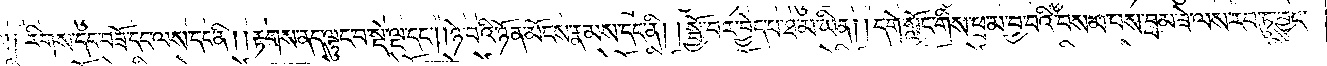ལ༑ རིགས་དང་བཟོ་དང་ལས་དང་ནི། །རྟག་ནད་ལྟུང་བ་སྡེ་ལྔ་དང༌། །ཉེ་བའི་ཉོན་མོངས་རྣམས་དང་ནི། །སྤྱོ་བར་བྱེད་པ་ཐ་མ་ཡིན། །དགེ་སློང་གིས་ཕྲ་མ་བྱ་བའི་བསམ་པས་བྲམ་ཟེ་ལས་རབ་ཏུ་བྱུང་
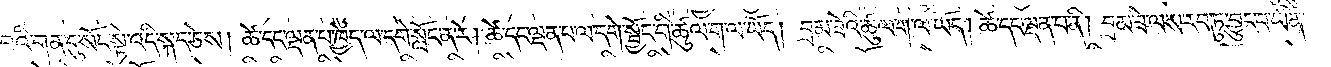བའི་གན་དུ་སོང་སྟེ་འདི་སྐད་ཅེས། ཚེ་དང་ལྡན་པ་ཁྱེད་ལ་དགེ་སློང་ན་རེ། ཚེ་དང་ལྡན་པ་ལ་དགེ་སྦྱོང་གི་ཚུལ་ག་ལ་ཡོད། བྲམ་ཟེའི་ཚུལ་ག་ལ་ཡོད། ཚེ་དང་ལྡན་པ་ནི། བྲམ་ཟེ་ལས་རབ་ཏུ་བྱུང་བ་ཡིན་
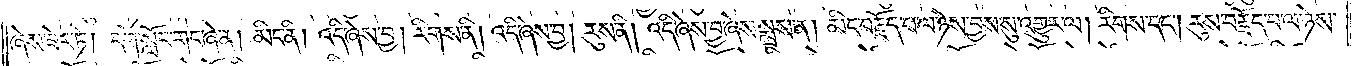ཞེས་ཟེར་ཏེ། དགེ་སློང་གང་ཞེ་ན། མིང་ནི། འདི་ཞེས་བྱ། རིགས་ནི། འདི་ཞེས་བྱ། རུས་ནི། འདི་ཞེས་བྱ་ཞེས་སྨྲས་ན། མིང་བརྗོད་པ་ལ་ཉེས་བྱས་སུ་འགྱུར་ལ། རིགས་དང༌། རུས་བརྗོད་པ་ལ་ཉེས་
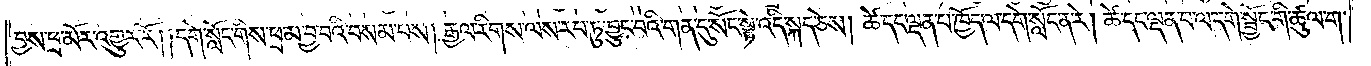བྱས་ཕྲ་མོར་འགྱུར་རོ། །དགེ་སློང་གིས་ཕྲ་མ་བྱ་བའི་བསམ་པས། རྒྱལ་རིགས་ལས་རབ་ཏུ་བྱུང་བའི་གན་དུ་སོང་སྟེ་འདི་སྐད་ཅེས། ཚེ་དང་ལྡན་པ་ཁྱོད་ལ་དགེ་སློང་ན་རེ། ཚེ་དང་ལྡན་པ་ལ་དགེ་སྦྱོང་གི་ཚུལ་ག་
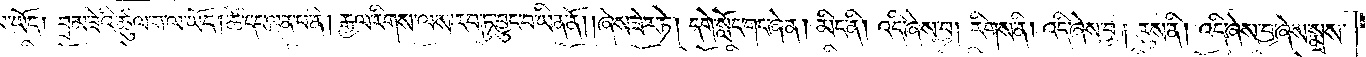ལ་ཡོད། བྲམ་ཟེའི་ཚུལ་ག་ལ་ཡོད། ཚེ་དང་ལྡན་པ་ནི། རྒྱལ་རིགས་ལས་རབ་ཏུ་བྱུང་བ་ཡིན་ནོ། །ཞེས་ཟེར་ཏེ། དགེ་སློང་གང་ཞེ་ན། མིང་ནི། འདི་ཞེས་བྱ། རིགས་ནི། འདི་ཞེས་བྱ། རུས་ནི། འདི་ཞེས་བྱ་ཞེས་སྨྲས་
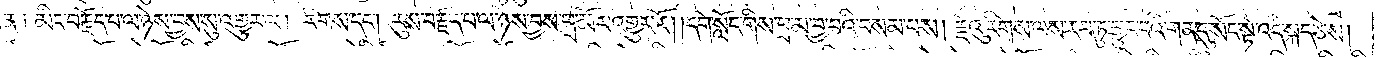ན༑ མིང་བརྗོད་པ་ལ་ཉེས་བྱས་སུ་འགྱུར་ལ། རིགས་དང༌། རུས་བརྗོད་པ་ལ་ཉེས་བྱས་ཕྲ་མོར་འགྱུར་རོ། །དགེ་སློང་གིས་ཕྲ་མ་བྱ་བའི་བསམ་པས། རྗེའུ་རིགས་ལས་རབ་ཏུ་བྱུང་བའི་གན་དུ་སོང་སྟེ་འདི་སྐད་ཅེས།
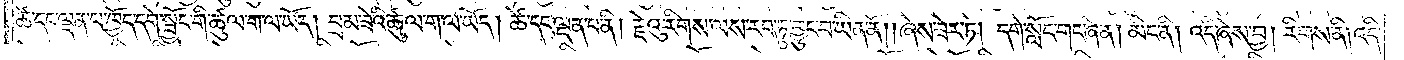ཚེ་དང་ལྡན་པ་ཁྱོད་དགེ་སྦྱོང་གི་ཚུལ་ག་ལ་ཡོད། བྲམ་ཟེའི་ཚུལ་ག་ལ་ཡོད། ཚེ་དང་ལྡན་པ་ནི། རྗེའུ་རིགས་ལས་རབ་ཏུ་བྱུང་བ་ཡིན་ནོ། །ཞེས་ཟེར་ཏེ། དགེ་སློང་གང་ཞེ་ན། མིང་ནི། འདི་ཞེས་བྱ། རིགས་ནི། འདི་
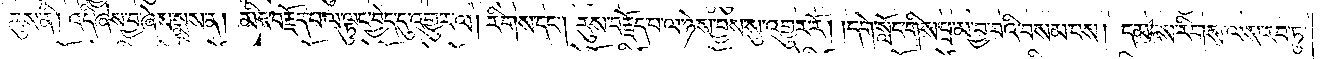ཞེས་བྱ། རུས་ནི། འདི་ཞེས་བྱ་ཞེས་སྨྲས་ན། མིང་བརྗོད་པ་ལ་ལྟུང་བྱེད་དུ་འགྱུར་ལ། རིགས་དང༌། རུས་བརྗོད་པ་ལ་ཉེས་བྱས་སུ་འགྱུར་རོ། །དགེ་སློང་གིས་ཕྲ་མ་བྱ་བའི་བསམ་པས། དམངས་རིགས་ལས་རབ་ཏུ་
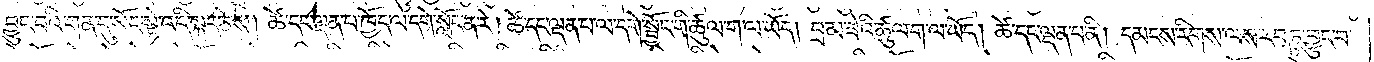བྱུང་བའི་གན་དུ་སོང་སྟེ་འདི་སྐད་ཅེས། ཚེ་དང་ལྡན་པ་ཁྱོད་ལ་དགེ་སློང་ན་རེ། ཚེ་དང་ལྡན་པ་ལ་དགེ་སྦྱོང་གི་ཚུལ་ག་ལ་ཡོད། བྲམ་ཟེའི་ཚུལ་ག་ལ་ཡོད། ཚེ་དང་ལྡན་པ་ནི། དམངས་རིགས་ལས་རབ་ཏུ་བྱུང་བ་
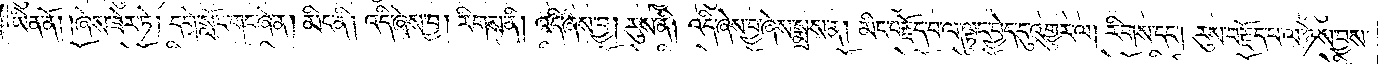ཡིན་ནོ། །ཞེས་ཟེར་ཏེ། དགེ་སློང་གང་ཞེ་ན། མིང་ནི། འདི་ཞེས་བྱ། རིགས་ནི། འདི་ཞེས་བྱ། རུས་ནི། འདི་ཞེས་བྱ་ཞེས་སྨྲས་ན། མིང་བརྗོད་པ་ལ་ལྟུང་བྱེད་དུ་འགྱུར་ལ། རིགས་དང༌། རུས་བརྗོད་པ་ལ་ཉེས་བྱས་
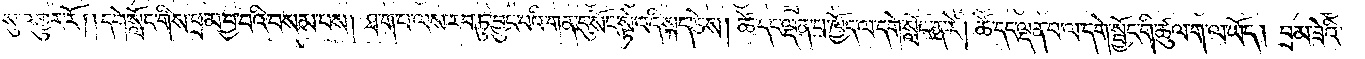སུ་འགྱུར་རོ། །དགེ་སློང་གིས་ཕྲ་མ་བྱ་བའི་བསམ་པས། ཐ་ག་པ་ལས་རབ་ཏུ་བྱུང་བའི་གན་དུ་སོང་སྟེ་འདི་སྐད་ཅེས། ཚེ་དང་ལྡན་པ་ཁྱོད་ལ་དགེ་སློང་ན་རེ། ཚེ་དང་ལྡན་པ་ལ་དགེ་སྦྱོང་གི་ཚུལ་ག་ལ་ཡོད། བྲམ་ཟེའི་
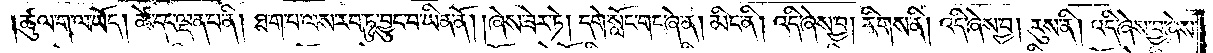ཚུལ་ག་ལ་ཡོད། ཚེ་དང་ལྡན་པ་ནི། ཐ་ག་པ་ལས་རབ་ཏུ་བྱུང་བ་ཡིན་ནོ། །ཞེས་ཟེར་ཏེ། དགེ་སློང་གང་ཞེ་ན། མིང་ནི། འདི་ཞེས་བྱ། རིགས་ནི། འདི་ཞེས་བྱ། རུས་ནི། འདི་ཞེས་བྱ་ཞེས་
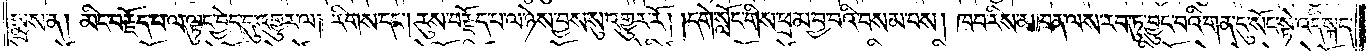སྨྲས་ན། མིང་བརྗོད་པ་ལ་ལྟུང་བྱེད་དུ་འགྱུར་ལ། རིགས་དང༌། རུས་བརྗོད་པ་ལ་ཉེས་བྱས་སུ་འགྱུར་རོ། །དགེ་སློང་གིས་ཕྲ་མ་བྱ་བའི་བསམ་པས། ཁབ་རིས་མཁན་ལས་རབ་ཏུ་བྱུང་བའི་གན་དུ་སོང་སྟེ་འདི་སྐད་
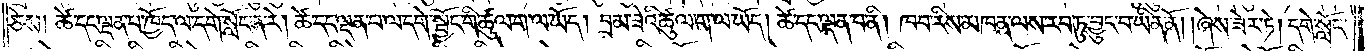ཅེས། ཚེ་དང་ལྡན་པ་ཁྱོད་ལ་དགེ་སློང་ན་རེ། ཚེ་དང་ལྡན་པ་ལ་དགེ་སྦྱོང་གི་ཚུལ་ག་ལ་ཡོད། བྲམ་ཟེའི་ཚུལ་ག་ལ་ཡོད། ཚེ་དང་ལྡན་པ་ནི། ཁབ་རིས་མཁན་ལས་རབ་ཏུ་བྱུང་བ་ཡིན་ནོ། །ཞེས་ཟེར་ཏེ། དགེ་སློང་
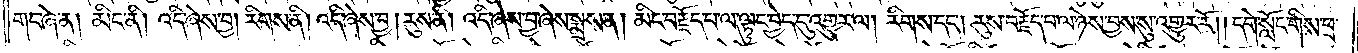གང་ཞེ་ན། མིང་ནི། འདི་ཞེས་བྱ། རིགས་ནི། འདི་ཞེས་བྱ། རུས་ནི། འདི་ཞེས་བྱ་ཞེས་སྨྲས་ན། མིང་བརྗོད་པ་ལ་ལྟུང་བྱེད་དུ་འགྱུར་ལ། རིགས་དང༌། རུས་བརྗོད་པ་ལ་ཉེས་བྱས་སུ་འགྱུར་རོ། །དགེ་སློང་གིས་ཕྲ་
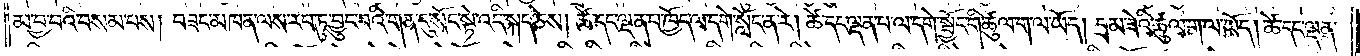མ་བྱ་བའི་བསམ་པས། བཟང་མཁན་ལས་རབ་ཏུ་བྱུང་བའི་གན་དུ་སོང་སྟེ་འདི་སྐད་ཅེས། ཚེ་དང་ལྡན་པ་ཁྱོད་ལ་དགེ་སློང་ན་རེ། ཚེ་དང་ལྡན་པ་ལ་དགེ་སྦྱོང་གི་ཚུལ་ག་ལ་ཡོད། བྲམ་ཟེའི་ཚུལ་ག་ལ་ཡོད། ཚེ་དང་ལྡན་
